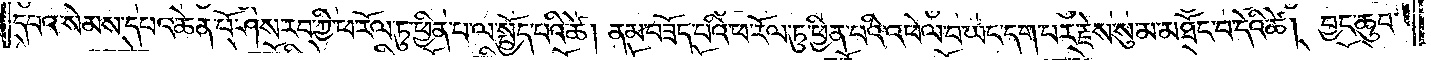དཔའ་སེམས་དཔའ་ཆེན་པོ་ཤེས་རབ་ཀྱི་ཕ་རོལ་ཏུ་ཕྱིན་པ་ལ་སྤྱོད་པའི་ཚེ། ནམ་བཟོད་པའི་ཕ་རོལ་ཏུ་ཕྱིན་པའི་འཕེལ་བ་ཡང་དག་པར་རྗེས་སུ་མ་མཐོང་བ་དེའི་ཚེ། བྱང་ཆུབ་
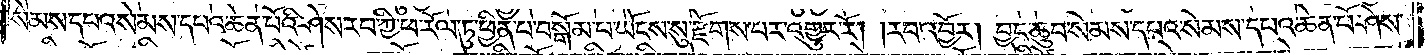སེམས་དཔའ་སེམས་དཔའ་ཆེན་པོའི་ཤེས་རབ་ཀྱི་ཕ་རོལ་ཏུ་ཕྱིན་པ་བསྒོམ་པ་ཡོངས་སུ་རྫོགས་པར་འགྱུར་རོ། །རབ་འབྱོར། བྱང་ཆུབ་སེམས་དཔའ་སེམས་དཔའ་ཆེན་པོ་ཤེས་
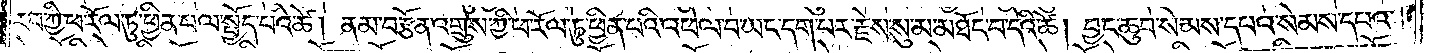རབ་ཀྱི་ཕ་རོལ་ཏུ་ཕྱིན་པ་ལ་སྤྱོད་པའི་ཚེ། ནམ་བརྩོན་འགྲུས་ཀྱི་ཕ་རོལ་ཏུ་ཕྱིན་པའི་འཕེལ་བ་ཡང་དག་པར་རྗེས་སུ་མ་མཐོང་བ་དེའི་ཚེ། བྱང་ཆུབ་སེམས་དཔའ་སེམས་དཔའ་
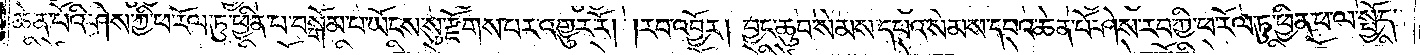ཆེན་པོའི་ཤེས་རབ་ཀྱི་ཕ་རོལ་ཏུ་ཕྱིན་པ་བསྒོམ་པ་ཡོངས་སུ་རྫོགས་པར་འགྱུར་རོ། །རབ་འབྱོར། བྱང་ཆུབ་སེམས་དཔའ་སེམས་དཔའ་ཆེན་པོ་ཤེས་རབ་ཀྱི་ཕ་རོལ་ཏུ་ཕྱིན་པ་ལ་སྤྱོད་
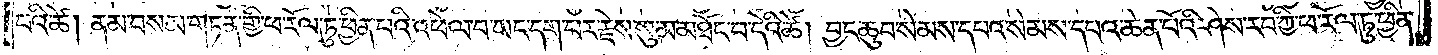པའི་ཚེ། ནམ་བསམ་གཏན་གྱི་ཕ་རོལ་ཏུ་ཕྱིན་པའི་འཕེལ་བ་ཡང་དག་པར་རྗེས་སུ་མ་མཐོང་བ་དེའི་ཚེ། བྱང་ཆུབ་སེམས་དཔའ་སེམས་དཔའ་ཆེན་པོའི་ཤེས་རབ་ཀྱི་ཕ་རོལ་ཏུ་ཕྱིན་
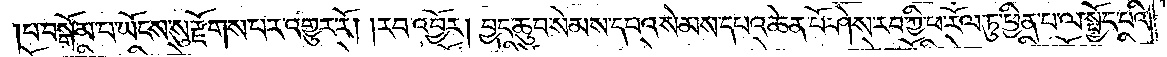པ་བསྒོམ་པ་ཡོངས་སུ་རྫོགས་པར་འགྱུར་རོ། །རབ་འབྱོར། བྱང་ཆུབ་སེམས་དཔའ་སེམས་དཔའ་ཆེན་པོ་ཤེས་རབ་ཀྱི་ཕ་རོལ་ཏུ་ཕྱིན་པ་ལ་སྤྱོད་པའི་
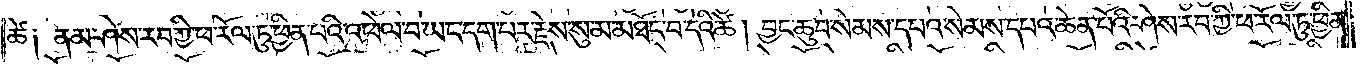ཚེ༑ ནམ་ཤེས་རབ་ཀྱི་ཕ་རོལ་ཏུ་ཕྱིན་པའི་འཕེལ་བ་ཡང་དག་པར་རྗེས་སུ་མ་མཐོང་བ་དེའི་ཚེ། བྱང་ཆུབ་སེམས་དཔའ་སེམས་དཔའ་ཆེན་པོའི་ཤེས་རབ་ཀྱི་ཕ་རོལ་ཏུ་ཕྱིན་
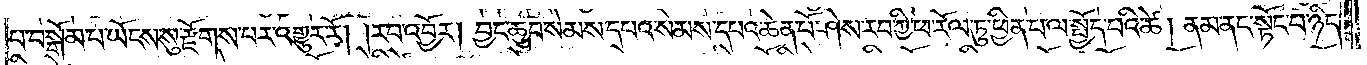པ་བསྒོམ་པ་ཡོངས་སུ་རྫོགས་པར་འགྱུར་རོ། །རབ་འབྱོར། བྱང་ཆུབ་སེམས་དཔའ་སེམས་དཔའ་ཆེན་པོ་ཤེས་རབ་ཀྱི་ཕ་རོལ་ཏུ་ཕྱིན་པ་ལ་སྤྱོད་པའི་ཚེ། ནམ་ནང་སྟོང་པ་ཉིད་
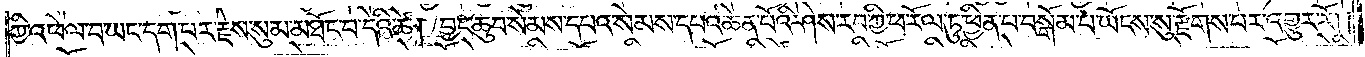ཀྱི་འཕེལ་བ་ཡང་དག་པར་རྗེས་སུ་མ་མཐོང་བ་དེའི་ཚེ། བྱང་ཆུབ་སེམས་དཔའ་སེམས་དཔའ་ཆེན་པོའི་ཤེས་རབ་ཀྱི་ཕ་རོལ་ཏུ་ཕྱིན་པ་བསྒོམ་པ་ཡོངས་སུ་རྫོགས་པར་འགྱུར་རོ། །
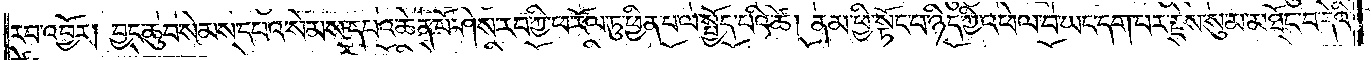རབ་འབྱོར། བྱང་ཆུབ་སེམས་དཔའ་སེམས་དཔའ་ཆེན་པོ་ཤེས་རབ་ཀྱི་ཕ་རོལ་ཏུ་ཕྱིན་པ་ལ་སྤྱོད་པའི་ཚེ། ནམ་ཕྱི་སྟོང་པ་ཉིད་ཀྱི་འཕེལ་བ་ཡང་དག་པར་རྗེས་སུ་མ་མཐོང་བ་དེའི་
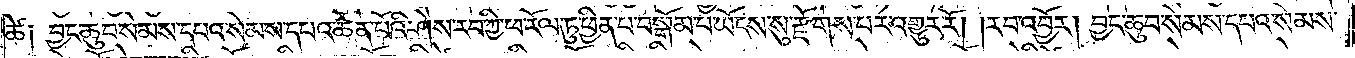ཚེ༑ བྱང་ཆུབ་སེམས་དཔའ་སེམས་དཔའ་ཆེན་པོའི་ཤེས་རབ་ཀྱི་ཕ་རོལ་ཏུ་ཕྱིན་པ་བསྒོམ་པ་ཡོངས་སུ་རྫོགས་པར་འགྱུར་རོ། །རབ་འབྱོར། བྱང་ཆུབ་སེམས་དཔའ་སེམས་
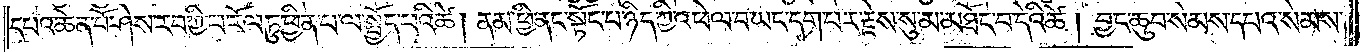དཔའ་ཆེན་པོ་ཤེས་རབ་ཀྱི་ཕ་རོལ་ཏུ་ཕྱིན་པ་ལ་སྤྱོད་པའི་ཚེ། ནམ་ཕྱི་ནང་སྟོང་པ་ཉིད་ཀྱི་འཕེལ་བ་ཡང་དག་པར་རྗེས་སུ་མ་མཐོང་བ་དེའི་ཚེ། བྱང་ཆུབ་སེམས་དཔའ་སེམས་
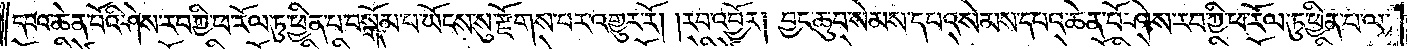དཔའ་ཆེན་པོའི་ཤེས་རབ་ཀྱི་ཕ་རོལ་ཏུ་ཕྱིན་པ་བསྒོམ་པ་ཡོངས་སུ་རྫོགས་པར་འགྱུར་རོ། །རབ་འབྱོར། བྱང་ཆུབ་སེམས་དཔའ་སེམས་དཔའ་ཆེན་པོ་ཤེས་རབ་ཀྱི་ཕ་རོལ་ཏུ་ཕྱིན་པ་ལ་
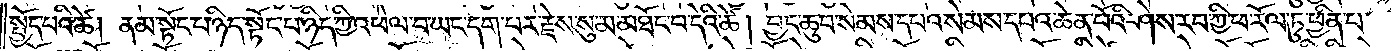སྤྱོད་པའི་ཚེ། ནམ་སྟོང་པ་ཉིད་སྟོང་པ་ཉིད་ཀྱི་འཕེལ་བ་ཡང་དག་པར་རྗེས་སུ་མ་མཐོང་བ་དེའི་ཚེ། བྱང་ཆུབ་སེམས་དཔའ་སེམས་དཔའ་ཆེན་པོའི་ཤེས་རབ་ཀྱི་ཕ་རོལ་ཏུ་ཕྱིན་པ་
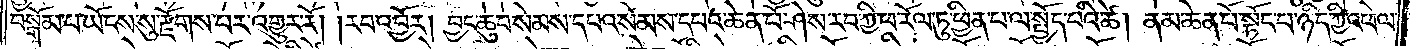བསྒོམ་པ་ཡོངས་སུ་རྫོགས་པར་འགྱུར་རོ། །རབ་འབྱོར། བྱང་ཆུབ་སེམས་དཔའ་སེམས་དཔའ་ཆེན་པོ་ཤེས་རབ་ཀྱི་ཕ་རོལ་ཏུ་ཕྱིན་པ་ལ་སྤྱོད་པའི་ཚེ། ནམ་ཆེན་པོ་སྟོང་པ་ཉིད་ཀྱི་འཕེལ་
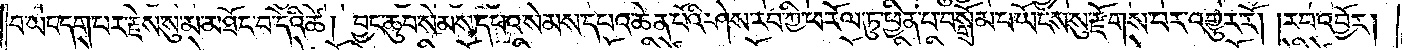བ་ཡང་དག་པར་རྗེས་སུ་མ་མཐོང་བ་དེའི་ཚེ། བྱང་ཆུབ་སེམས་དཔའ་སེམས་དཔའ་ཆེན་པོའི་ཤེས་རབ་ཀྱི་ཕ་རོལ་ཏུ་ཕྱིན་པ་བསྒོམ་པ་ཡོངས་སུ་རྫོགས་པར་འགྱུར་རོ། །རབ་འབྱོར།
